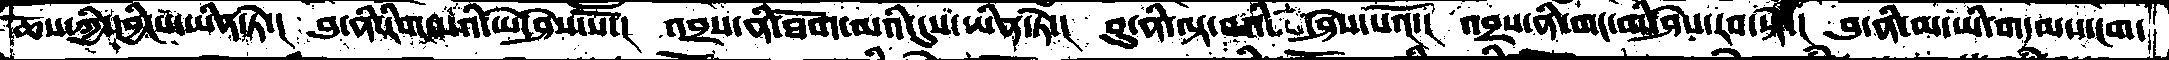ཆོས་ཀྱི་དབྱིངས་ཡིན་ཏེ་།  བུ་ནི་རིགས་པའི་ཡེ་ཤེས་སོ་།  འབྲས་ནི་ཐོག་མའི་དུས་ཡིན་ཏེ་།  བུ་ནི་ལྟ་བའི་   ཤེས་པའོ་།  འབྲས་ནི་གང་གི་ཤེས་རབ་སྟེ་།  བུ་ནི་མ་ཡི་གདམས་ངག་
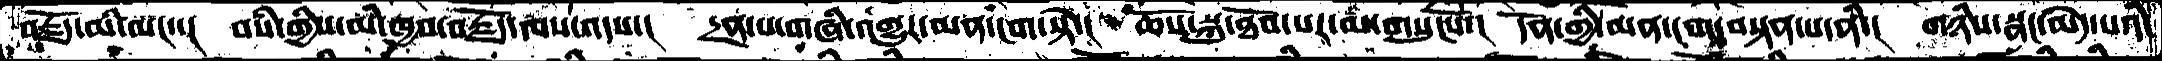བརྗོད་མི་ལང་་།  བསཾ་གྱིས་མི་ཁྱབ་བརྗོད་ལས་འདས་།   དྲན་པ་གཞི་འགྱུར་མན་ངག་སྟེ་།  ཆོས་སྐུ་ཐོབ་པར་མི་གསུངསོ་།  དོན་གྱི་མན་ངག་བསྟན་པ་ནི་།  གཉིས་སྣང་མེད་པའི་
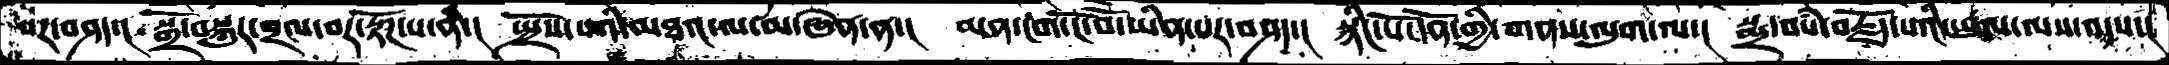པར་བཤད་།  སྒྲོ་བསྐུར་བྲལ་བར་རྟོཌ་པ་ནི་།   སྤྲོས་པའི་མཐའ་ལ་མ་ཞེན་ན་།  མན་ངག་ངོ་བོ་ཡིན་པར་བཤད་།  སྙིང་པོ་དོན་གྱི་གནས་ལུག་ལ་།  སྨྲ་བསཾ་བརྗོད་པའི་ཡུལ་ལས་འདས་།
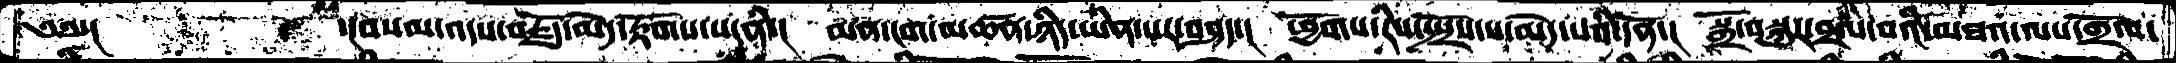༄༅་།      ་།བསམ་འདས་བརྗོད་མེད་རྟོགས་པར་ནི་།  མན་ངག་མཚན་ཉིད་ཡིན་པར་བཤད་།  ཕྱོགས་རིས་སྤྲོས་པ་མེད་པའི་དོན་།  སྒྲོ་བསྐུར་བྲལ་བའི་མཐའ་ལས་གྲོལ་
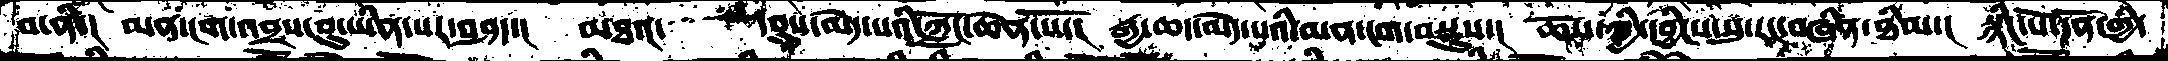བ་ནི་།   མན་ངག་འབྲས་བུ་ཡིན་པར་བཤད་།   མཐའ་    དབུས་མེད་པའི་ཀློང་ཆེན་པོ་།  རྒྱ་ཆད་མེད་པའི་མན་ངག་བསྡུས་།  ཆོས་ཀྱི་དབྱིངས་སུ་རང་བཞིན་ཐིམ་།  སྙིང་པོ་དོན་གྱི་
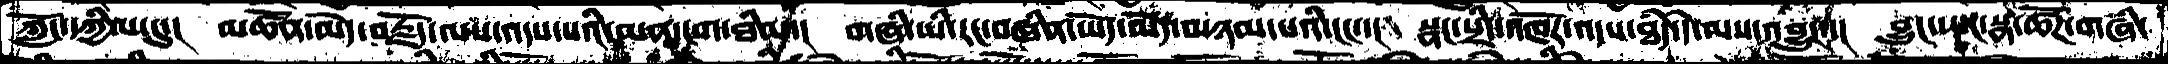ཀློང་དཀྱིལ་དུ་།   མཚོན་མེད་བརྗོད་ལས་འདས་པའི་མན་ངག་ཐིམ་།  གཞི་ཡི་རང་བཞིན་ཡོད་མེད་མཉམ་པའི་ངང་།  སྣང་སྲིད་འཁོར་འདས་ཐཾད་དེ་ལས་འབྱུང་།  བྱུང་ཡང་སྣ་ཚོཌ་གཞི་
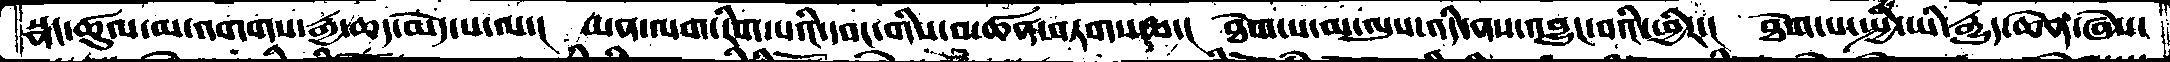སྣང་ཚུལ་མ་འགགས་རྒྱ་ཆད་མེད་པ་ལ་།  ཡན་ལག་རིག་པའི་དབང་གིས་མཚན་བཏགས་པ་།  ཐེག་པ་མ་ལུས་འདི་ནས་འབྱུང་བའི་ཕྱིར་།  ཐེག་པ་སྤྱི་ཡི་རྒྱུད་ཆེན་ཞེས་
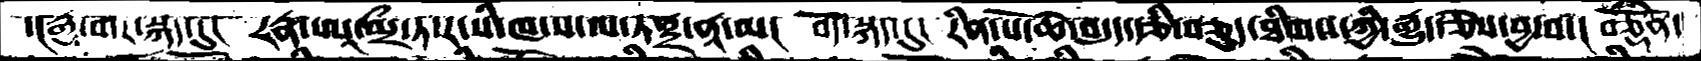་།རྒྱ་གར་སྐད་དུ།  རཏྣ་ཨཱ་མྲྀ་ཏ་ར་སི་ཁ་ས་ལ་ཏནྟྲ་ནཱ་མ།  བོད་སྐད་དུ།  རིན་པོ་ཆེ་བདུད་རྩི་བཅུད་ཐིགས་ཀྱི་རྒྱུད་ཅེས་བྱ་བ་།  བཅྟོཾན་
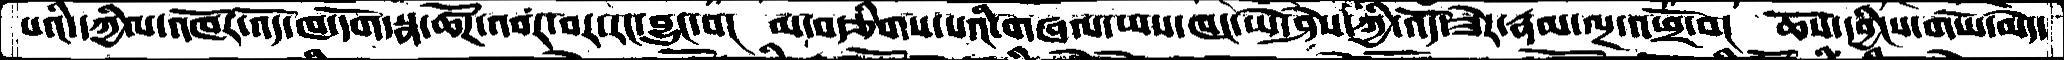པའི་དཀྱིལ་འཁོར་འོདཁ་དོག་སྣ་ཚོཌ་འབར་བར་རང་བྱུང་བ།  མ་བརྩིགས་པའི་གཞལ་ཡས་ཁང་ཡེ་ཤེས་ཀྱི་འོད་ཟེར་རྣམ་ལྔ་འཕྲོ་བ་།  ཆོས་དབྱིངས་གཡོ་མེད་
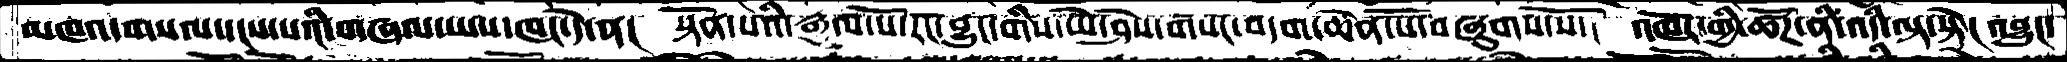མཁའ་གསལ་དངས་པའི་གཞལ་ཡས་ཁང་དེ་ན།  སྟོན་པའི་རྒྱལ་པོ་རང་བྱུང་གིས་ཡེ་ཤེས་གསང་བདག་ཆེན་པོ་བཞུགས་སོ་།  འཁོར་གྱི་ཚོཌ་ནི་འདི་ལྟ་སྟེ་།  འབྱུང་
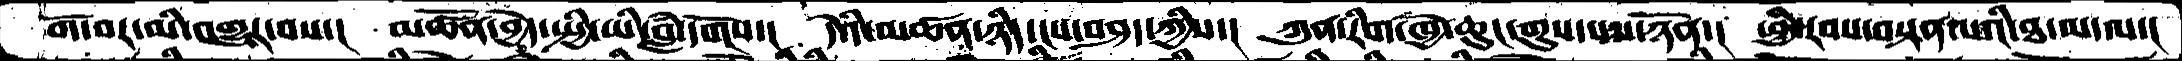གོ་བར་མི་འགྱུར་བས་།  མཚོན་བྱེད་སྤྱི་ཡི་བླཾ་དགོངས་།  དེའི་མཚན་ཉིད་ངས་བཤད་ཀྱིས་།  ཀུན་རིག་ཁྱེ་ཆུང་གུས་པས་ཉོན་།  ཕྱི་རབས་བསྟན་པའི་ཐ་མ་ལ་།
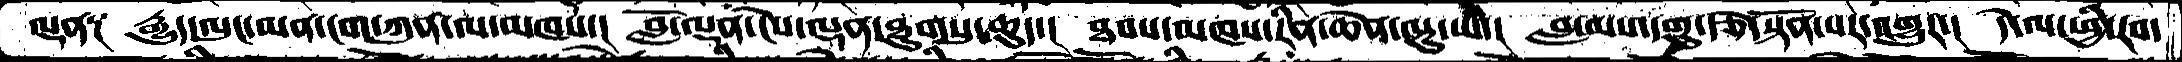ལྡན༑  རྒྱུད་ལུང་མག་ངག་ཀུན་ལ་མཁས་།  བློ་ལྡན་ངེས་ལྡན་ཐུགསུ་ཆུད་།  ཐབས་མཁས་རིན་ཆེན་ལྟུ་ཡི་།  བླ་མས་དགུ་རྩེ་སྟོན་པར་འགྱུར་། དེ་ལ་ཕྱི་རབ་
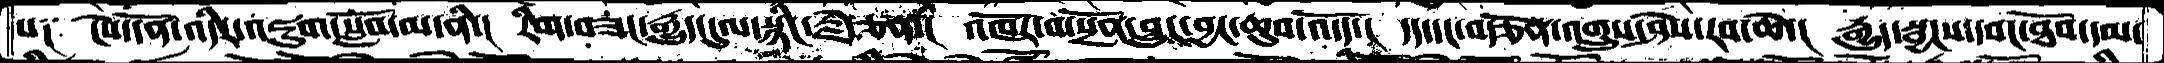པ༑   ངེས་དོན་འདིར་འཇུག་སློབ་མ་ནི་།  རིག་བཟང་རྒྱུད་དུལ་སྙིང་རྗེ་ཅན་།  འཁོར་བ་སྔོན་བྱུང་བྱང་ཆུབ་འོདད་།  དད་དང་བརྩོན་འགྲུས་ཤེས་རབ་ཆེ་།  རྒྱུད་སྦྱངས་དབང་ཐོབ་དམ་
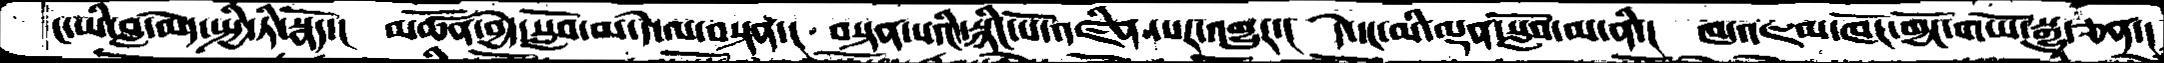ང་ཡི་བླ་མེད་སྤྱི་ཏི་སྣོད་།  མཚོན་བྱེད་སློབ་མ་དེ་ལ་བསྟན་།  བསྟན་པའི་སྙིང་པོ་འཛིན་པར་འགྱུར་།  དེ་དང་མི་ལྡན་སློབ་མ་ནི་།  ཁ་འཇམ་ཁོང་གྱོང་གཡོ་སྒྱུ་ཅན་།
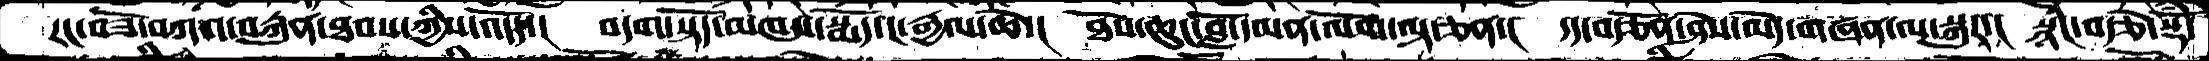རང་བཟོ་བཀའ་བརྐུན་ཐབས་ཀྱིས་འདོད་།  བདག་སྟོད་མཁས་སྨོད་ང་རྒྱལ་ཆེ་།  ཐོས་ཆུང་བློ་དམན་ལོག་ལྟ་ཅན་།  དད་བརྩོན་ཤེས་མེད་གཞན་ལ་སྐུར་།  སྙིང་བརྩེ་སྡོཾ་
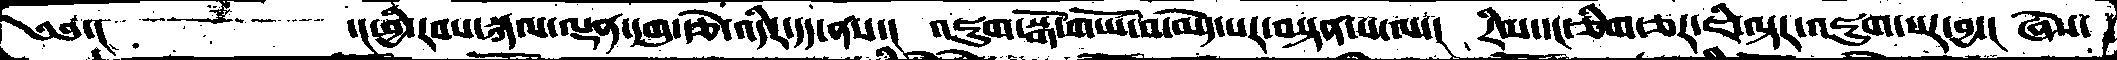༄༅་།       ་།ཕྱི་རབས་སྐལ་ལྡན་དགུ་རྩེ་འདིར་དད་ནས་།  འཇུག་སྒོ་གཡོ་བ་མེད་པར་བསྟན་པ་ལ་།  རིམ་དང་ཅིག་ཅར་ཇི་ལྟར་འཇུག་པར་བྱ་།  ཞེས་
